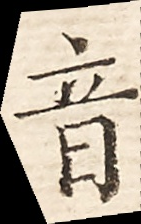音
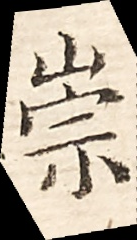崇
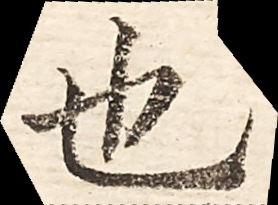也
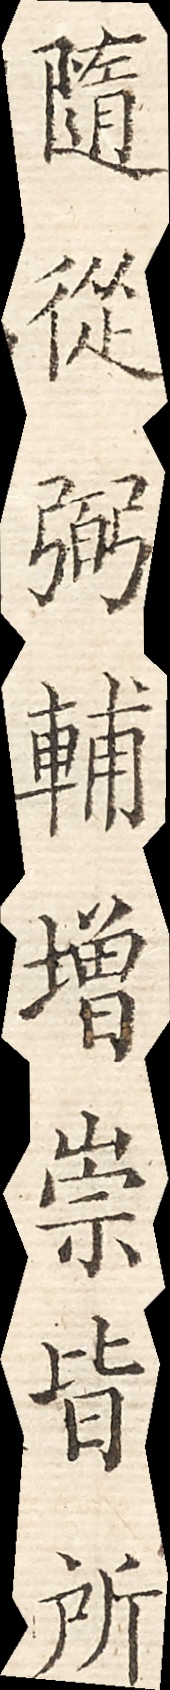隨從弼輔增崇皆所
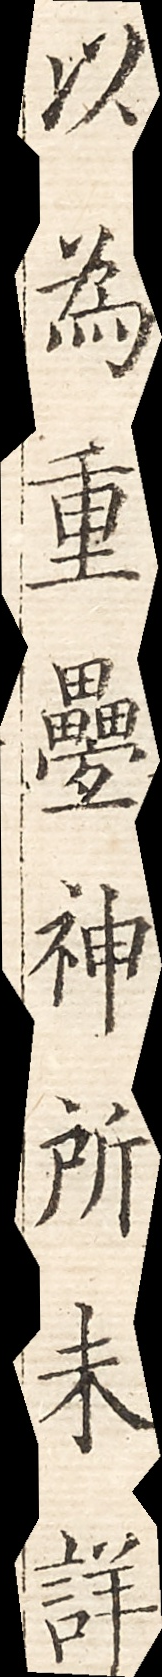以爲重疊神所未詳
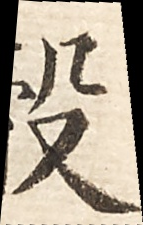觳
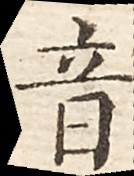音
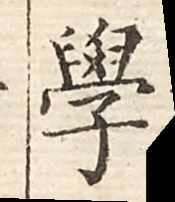学
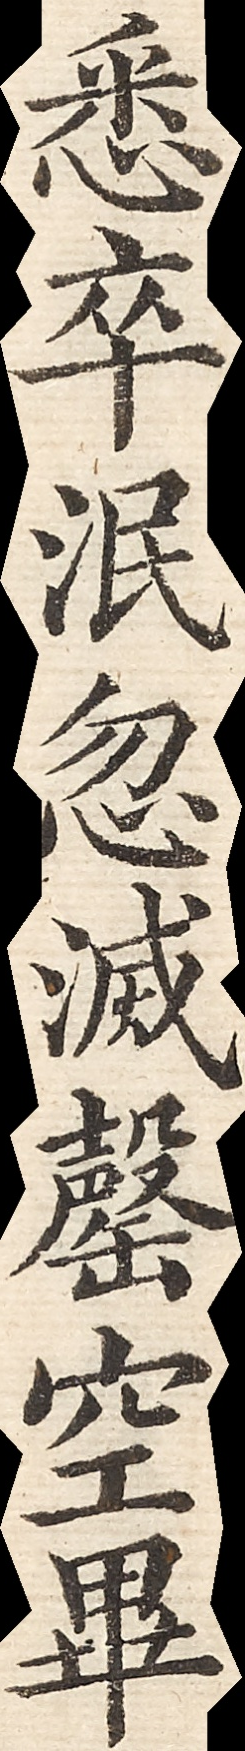悉卒泯忽滅罄空畢
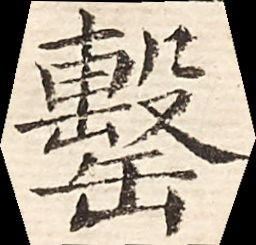罄
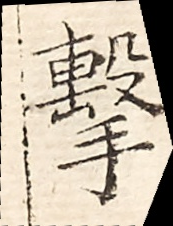擎
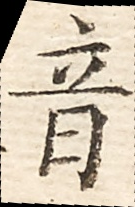音
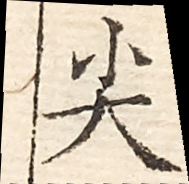尖
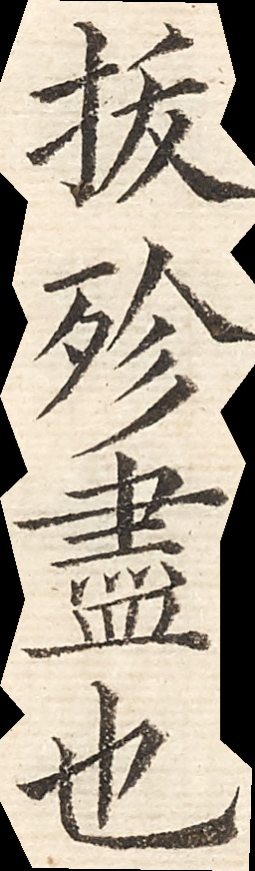拔殄盡也
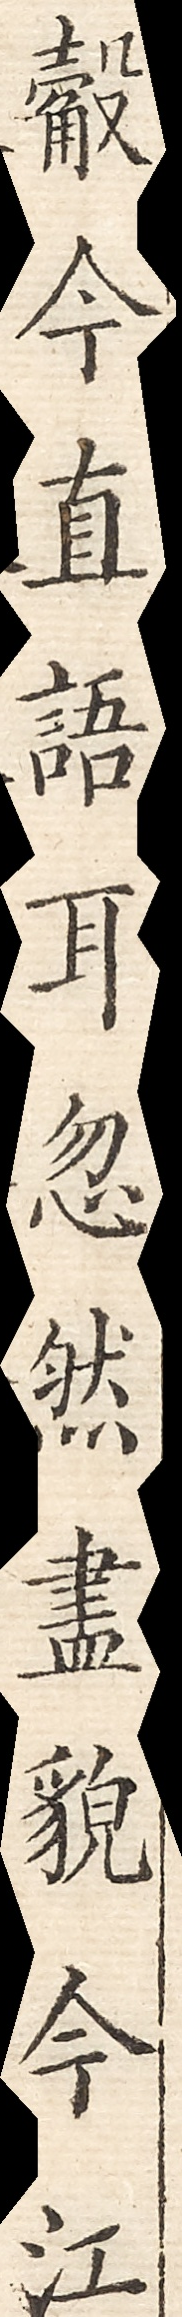觳今直語耳忽然盡貌今江
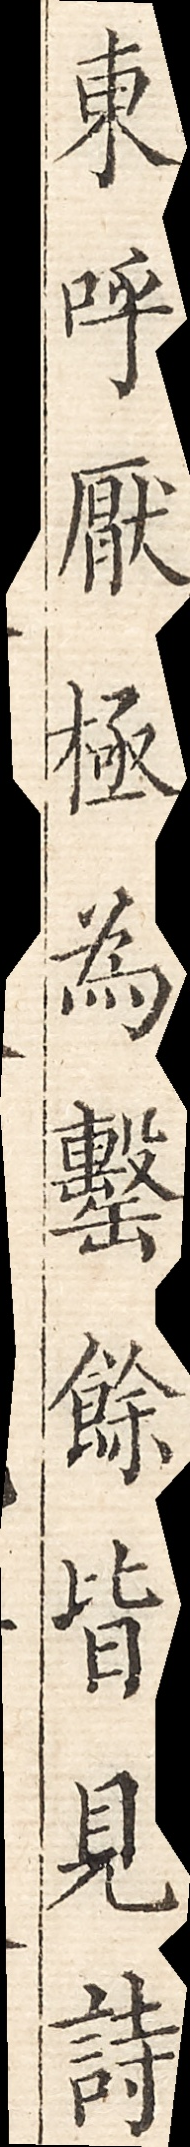東呼厭極爲罄餘皆見詩
